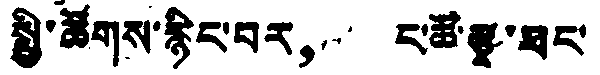སྤྱི་ཚོགས་རྙིང་བར， ང་ཚོ་རྩྭ་ཐང་
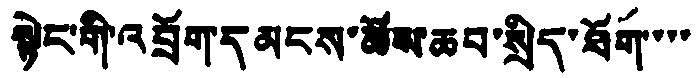སྟེང་གི་འབྲོག་དམངས་ཚོས་ཆབ་སྲིད་ཐོག་་་་
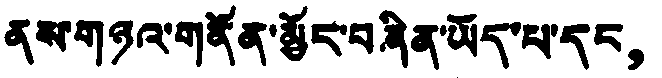ནས་གཉའ་གནོན་མྱོང་བཞིན་ཡོད་པ་དང，
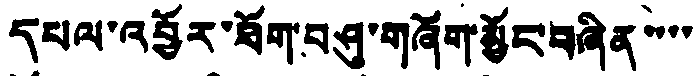དཔལ་འབྱོར་ཐོག་བཤུ་གཞོག་མྱོང་བཞིན་་་་
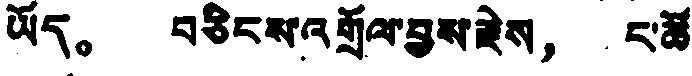ཡོད。 བཅིངས་འགྲོལ་བྱས་རྗེས， ང་ཚོ་
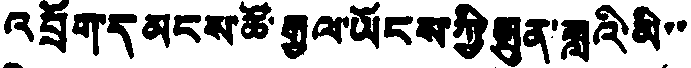འབྲོག་དམངས་ཚོ་རྒྱལ་ཡོངས་ཀྱི་སྤུན་ཟླའི་མི་་
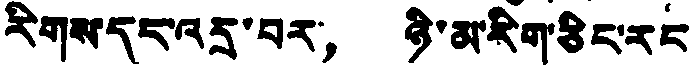རིགས་དང་འདྲ་བར， ཉི་མ་རིག་ཅིང་རང
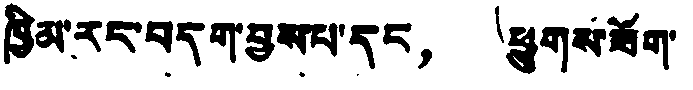ཁྱིམ་རང་བདག་བྱས་པ་དང， ཕྱུགས་ཟོག་
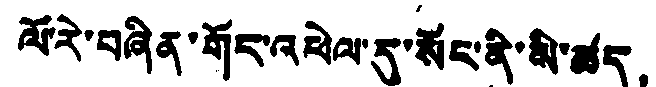ལོ་རེ་བཞིན་གོང་འཕེལ་དུ་སོང་ནི་མི་ཚད，
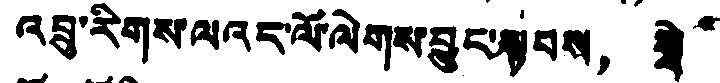འབྲུ་རིགས་ལའང་ལོ་ལེགས་བྱུང་སྐབས， སླེ
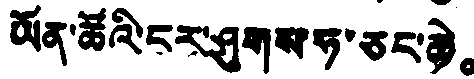ཡོན་ཚོའི་ངར་ཤུགས་ཧ་ཅང་ཆེ。
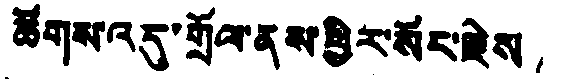ཚོགས་འདུ་གྲོལ་ནས་ཕྱིར་སོང་རྗེས，
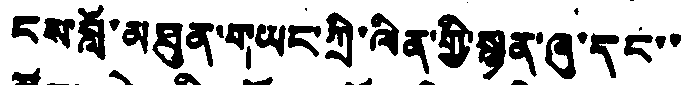ངས་བློ་མཐུན་གཡང་ཀྲི་ལིན་གྱི་སྙན་ཞུ་དང་་
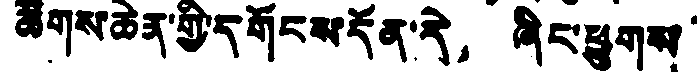ཚོགས་ཆེན་གྱི་དགོངས་དོན་དེ， ཞིང་ཕྱུགས་
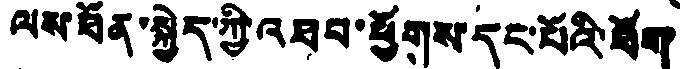ལས་ཐོན་སྐྱེད་ཀྱི་འཐབ་ཕྱོགས་དང་པོའི་ཐོག
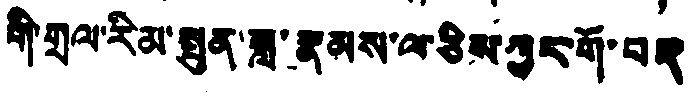གི་གྲལ་རིམ་སྤུན་ཟླ་རྣམས་ལ་ཅིས་ཀྱང་གོ་བརྡ
